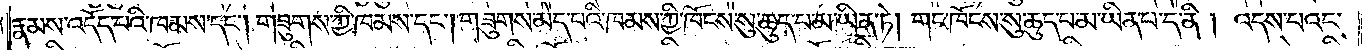རྣམས་འདོད་པའི་ཁམས་དང༌། གཟུགས་ཀྱི་ཁམས་དང༌། གཟུགས་མེད་པའི་ཁམས་ཀྱི་ཁོངས་སུ་ཆུད་པ་མ་ཡིན་ཏེ། གང་ཁོངས་སུ་ཆུད་པ་མ་ཡིན་པ་དེ་ནི། འདས་པའང་
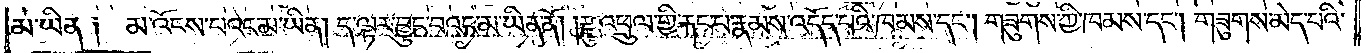མ་ཡིན༑ མ་འོངས་པའང་མ་ཡིན། ད་ལྟར་བྱུང་བའང་མ་ཡིན་ནོ། །རྫུ་འཕྲུལ་གྱི་རྐང་པ་རྣམས་འདོད་པའི་ཁམས་དང༌། གཟུགས་ཀྱི་ཁམས་དང༌། གཟུགས་མེད་པའི་
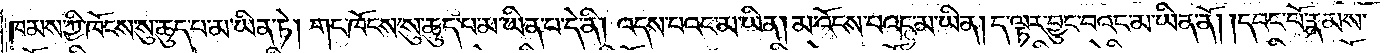ཁམས་ཀྱི་ཁོངས་སུ་ཆུད་པ་མ་ཡིན་ཏེ། གང་ཁོངས་སུ་ཆུད་པ་མ་ཡིན་པ་དེ་ནི། འདས་པའང་མ་ཡིན། མ་འོངས་པའང་མ་ཡིན། ད་ལྟར་བྱུང་བའང་མ་ཡིན་ནོ། །དབང་པོ་རྣམས་
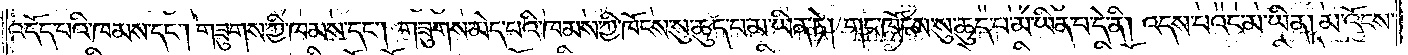འདོད་པའི་ཁམས་དང༌། གཟུགས་ཀྱི་ཁམས་དང༌། གཟུགས་མེད་པའི་ཁམས་ཀྱི་ཁོངས་སུ་ཆུད་པ་མ་ཡིན་ཏེ། གང་ཁོངས་སུ་ཆུད་པ་མ་ཡིན་པ་དེ་ནི། འདས་པའང་མ་ཡིན། མ་འོངས་
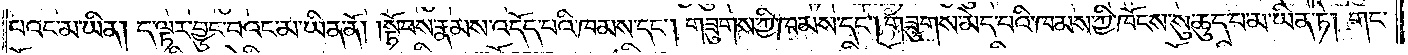པའང་མ་ཡིན། ད་ལྟར་བྱུང་བའང་མ་ཡིན་ནོ། །སྟོབས་རྣམས་འདོད་པའི་ཁམས་དང༌། གཟུགས་ཀྱི་ཁམས་དང༌། གཟུགས་མེད་པའི་ཁམས་ཀྱི་ཁོངས་སུ་ཆུད་པ་མ་ཡིན་ཏེ། གང་
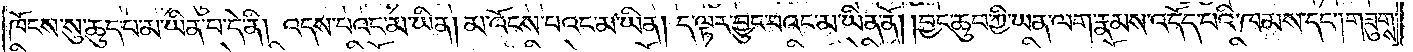ཁོངས་སུ་ཆུད་པ་མ་ཡིན་པ་དེ་ནི། འདས་པའང་མ་ཡིན། མ་འོངས་པའང་མ་ཡིན། ད་ལྟར་བྱུང་བའང་མ་ཡིན་ནོ། །བྱང་ཆུབ་ཀྱི་ཡན་ལག་རྣམས་འདོད་པའི་ཁམས་དང༌། གཟུགས་
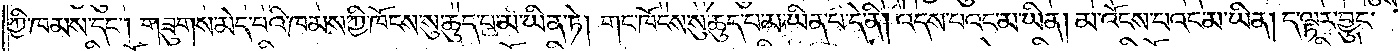ཀྱི་ཁམས་དང༌། གཟུགས་མེད་པའི་ཁམས་ཀྱི་ཁོངས་སུ་ཆུད་པ་མ་ཡིན་ཏེ། གང་ཁོངས་སུ་ཆུད་པ་མ་ཡིན་པ་དེ་ནི། འདས་པའང་མ་ཡིན། མ་འོངས་པའང་མ་ཡིན། ད་ལྟར་བྱུང་
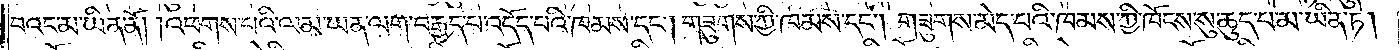བའང་མ་ཡིན་ནོ། །འཕགས་པའི་ལམ་ཡན་ལག་བརྒྱད་པ་འདོད་པའི་ཁམས་དང༌། གཟུགས་ཀྱི་ཁམས་དང༌། གཟུགས་མེད་པའི་ཁམས་ཀྱི་ཁོངས་སུ་ཆུད་པ་མ་ཡིན་ཏེ།
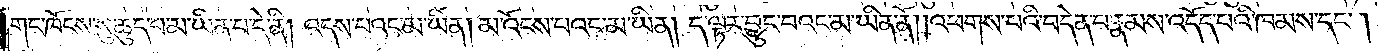གང་ཁོངས་སུ་ཆུད་པ་མ་ཡིན་པ་དེ་ནི། འདས་པའང་མ་ཡིན། མ་འོངས་པའང་མ་ཡིན། ད་ལྟར་བྱུང་བའང་མ་ཡིན་ནོ། །འཕགས་པའི་བདེན་པ་རྣམས་འདོད་པའི་ཁམས་དང༌།
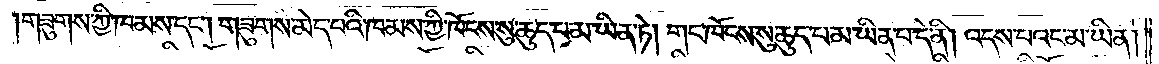གཟུགས་ཀྱི་ཁམས་དང༌། གཟུགས་མེད་པའི་ཁམས་ཀྱི་ཁོངས་སུ་ཆུད་པ་མ་ཡིན་ཏེ། གང་ཁོངས་སུ་ཆུད་པ་མ་ཡིན་པ་དེ་ནི། འདས་པའང་མ་ཡིན།
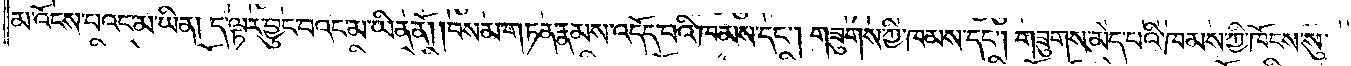མ་འོངས་པའང་མ་ཡིན། ད་ལྟར་བྱུང་བའང་མ་ཡིན་ནོ། །བསམ་གཏན་རྣམས་འདོད་པའི་ཁམས་དང༌། གཟུགས་ཀྱི་ཁམས་དང༌། གཟུགས་མེད་པའི་ཁམས་ཀྱི་ཁོངས་སུ་
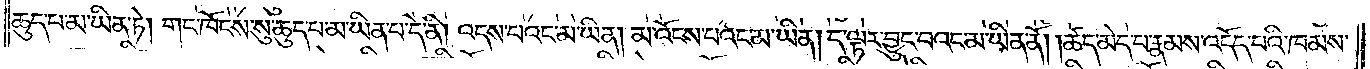ཆུད་པ་མ་ཡིན་ཏེ། གང་ཁོངས་སུ་ཆུད་པ་མ་ཡིན་པ་དེ་ནི། འདས་པའང་མ་ཡིན། མ་འོངས་པའང་མ་ཡིན། ད་ལྟར་བྱུང་བའང་མ་ཡིན་ནོ། །ཚད་མེད་པ་རྣམས་འདོད་པའི་ཁམས་
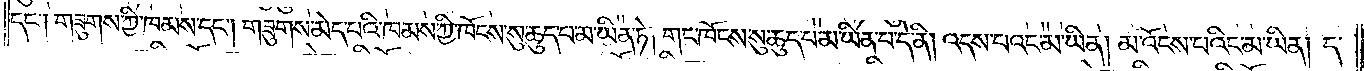དང་། གཟུགས་ཀྱི་ཁམས་དང༌། གཟུགས་མེད་པའི་ཁམས་ཀྱི་ཁོངས་སུ་ཆུད་པ་མ་ཡིན་ཏེ། གང་ཁོངས་སུ་ཆུད་པ་མ་ཡིན་པ་དེ་ནི། འདས་པའང་མ་ཡིན། མ་འོངས་པའང་མ་ཡིན། ད་
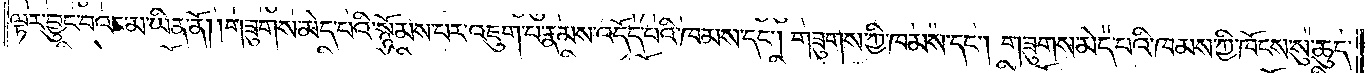ལྟར་བྱུང་བའང་མ་ཡིན་ནོ། །གཟུགས་མེད་པའི་སྙོམས་པར་འཇུག་པ་རྣམས་འདོད་པའི་ཁམས་དང༌། གཟུགས་ཀྱི་ཁམས་དང༌། གཟུགས་མེད་པའི་ཁམས་ཀྱི་ཁོངས་སུ་ཆུད་
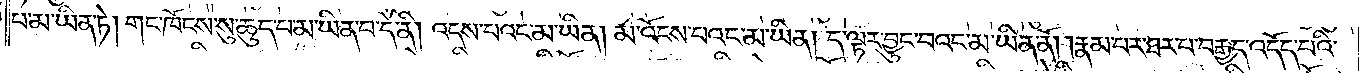པ་མ་ཡིན་ཏེ། གང་ཁོངས་སུ་ཆུད་པ་མ་ཡིན་པ་དེ་ནི། འདས་པའང་མ་ཡིན། མ་འོངས་པའང་མ་ཡིན། ད་ལྟར་བྱུང་བའང་མ་ཡིན་ནོ། །རྣམ་པར་ཐར་པ་བརྒྱད་འདོད་པའི་
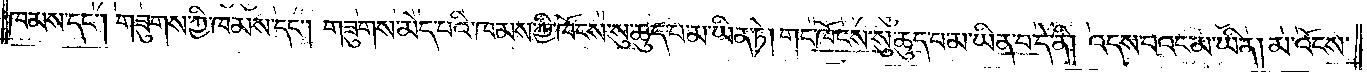ཁམས་དང༌། གཟུགས་ཀྱི་ཁམས་དང༌། གཟུགས་མེད་པའི་ཁམས་ཀྱི་ཁོངས་སུ་ཆུད་པ་མ་ཡིན་ཏེ། གང་ཁོངས་སུ་ཆུད་པ་མ་ཡིན་པ་དེ་ནི། འདས་པའང་མ་ཡིན། མ་འོངས་
